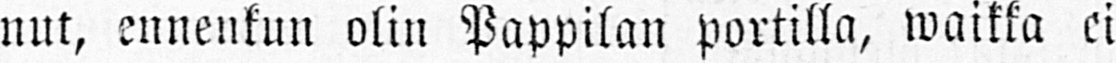nut, ennenkun olin Pappilan portilla, waikka ei
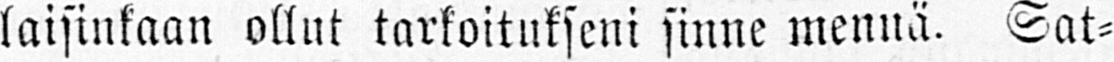laisinkaan ollut tarkoitukseni sinne mennä. Sat-
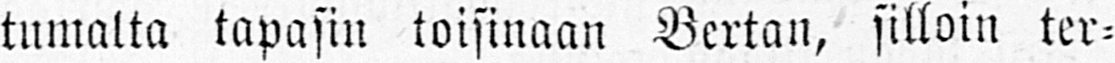tumalta tapasin toisinaan Bertan, silloin ter-
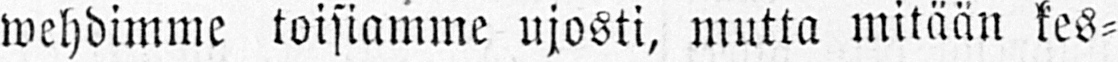wehdimme toisiamme ujosti, mutta mitään kes-
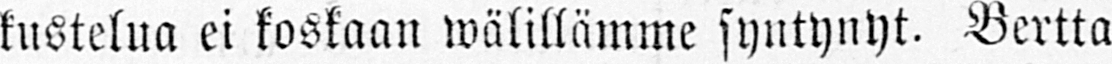kustelua ei koskaan wälillämme syntynyt. Bertta
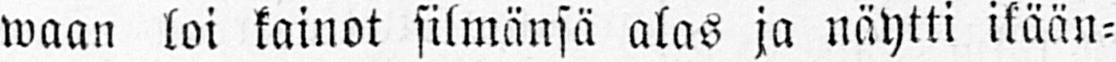waan loi kainot silmänsä alas ja näytti ikään-
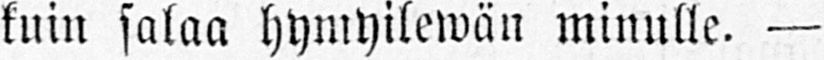kuin salaa hymyilewän minulle. —
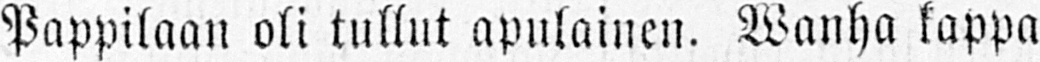Pappilaan oli tullut apulainen. Wanha kappa-
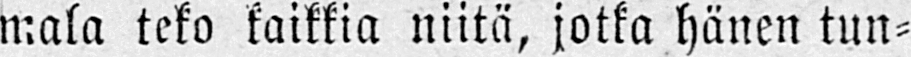mala teko kaikkia niitä, jotka hänen tun-
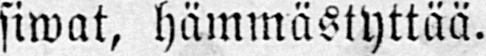siwat, hämmästyttää.
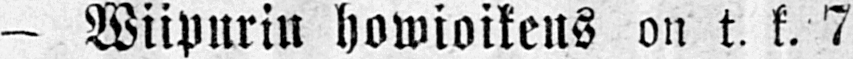— Wiipurin howioikens on t. k. 7
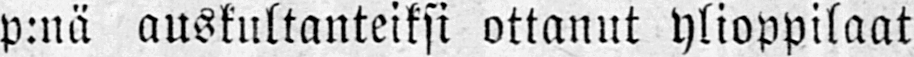p:nä auskultanteiksi ottanut ylioppilaat
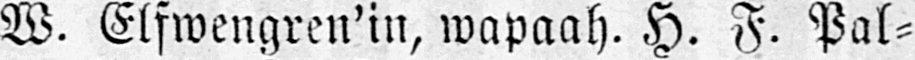W. Elfwengren'in, wapaah. H. F. Pal-
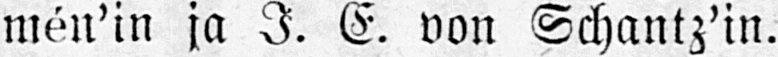mén'in ja J. E. von Schantz'in.
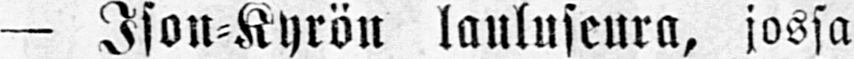— Ison-Kyrön lauluseura, jossa
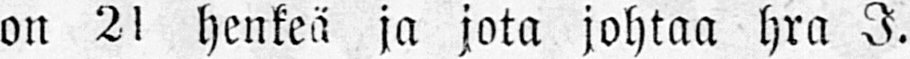on 21 henkeä ja jota johtaa hra I.
